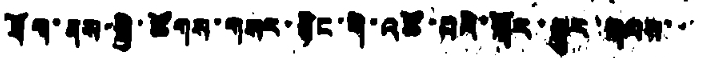ཐོག་ནས་སྤྱི་ཚོགས་གསར་རྙིང་གི་འཚོ་བའི་སྐོར་སྒྱུར་སྐབས་་
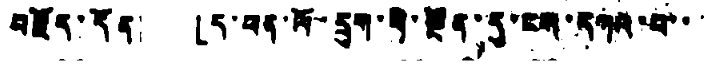བརྗོད་དོན། 「ད་ཕན་ལོོ་དྲུག་གིསྔོིན་དུ་ངས་དཀའ་བ་་་་
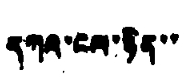དཀའ་ངལ་ཉིན་་
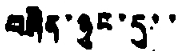བཞིན་ཉུང་དུ་་
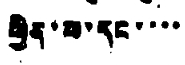ཕྱིན་པ་དང་་་་
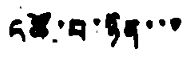འཚོ་བ་ཉིན་་་
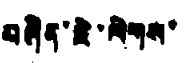བཞིན་ཇེ་ལེགས་
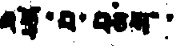འགྲོ་བ་བཅས་་
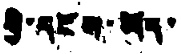ཀྱི་དངོས་ཡོད་
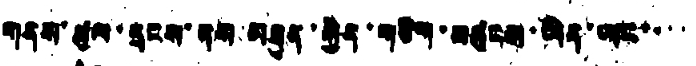གནས་ཚུལ་དྲངས་ནས་མཐུན་སྐྱེད་གཅིག་མཚུངས་ཡིན་ཡང་་་་
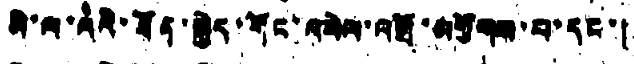མི་ལ་ལའི་ཐོན་སྐྱེད་གོང་འཕེལ་འགྲོ་མགྱོགས་པ་དང་།
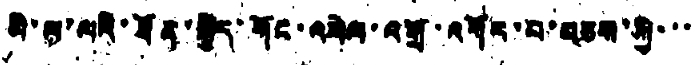མི་ལ་ལའི་ཐོན་སྐྱེད་གོང་འཕེས་འགྲོ་འགོར་བ་བཅས་ཀྱི་་་
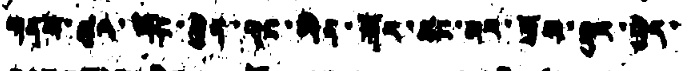གནས་ཚུལ་གོང་སྐྱེད་དང་མིན་སྐོར་ཚང་མར་གྲོས་སྡུར་བྱེད་
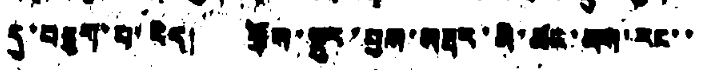དུ་བཅུག་པ་རེད། གྲོས་སྡུར་བྱས་མཐར་མི་ཚང་མས་རང་་
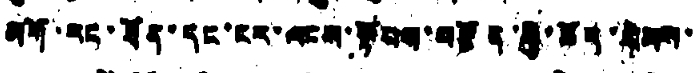མགོ་རང་ཐོན་དང་ངར་ལངས་སྟོབས་བརྩོན་གྱི་ཚོད་སེམས་
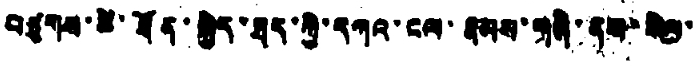བཙུགས་ཚེ་ཐོན་སྐྱེད་ཐད་ཀྱི་དཀའ་ངལ་རྣམས་གཞི་ནས་སེལ་
